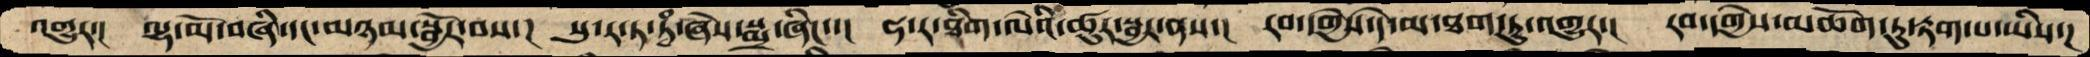འགྱུར་།  ལྷ་མོ་བཞི་དང་མཉམ་སྦྱོར་བས་།  སུ་ར་ཏ་ཏྭཾ་ཞེས་སྨྲ་ཞིང་་།  ཧ་ར་ཐིག་ལེའི་ཚུར་སྦྱར་ནས་།  རབ་དགྱེས་དེ་མ་ཐག་ཏུ་འགྱུར་།  རབ་དགྱེས་མཆོག་ཏུ་རྟག་པ་ཡིས་།
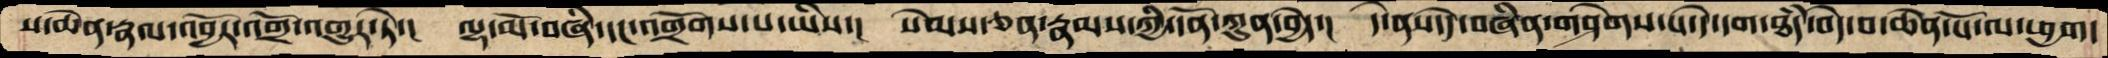ས་ཆེན་རྣལ་འབྱོར་འགྲོ་འགྱུར་ཏེ་།  ལྷ་མོ་བཞི་དང་འགྲོགས་པ་ཡིས་།  སེམས་ཅན་རྣམས་ཀྱི་དོན་ཀུན་བྱེད་།  དེ་ནས་དེ་བཞིན་གཤེགས་པ་དེ་དག་ཐཾད་བདེ་བ་ཆེན་པོ་ལ་ཕྱག་
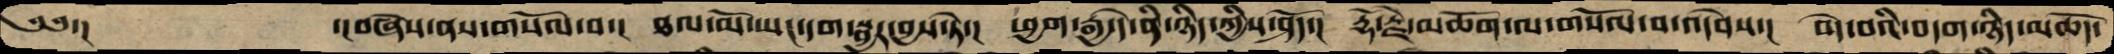༄༅་།       ་།བཞེས་ནས་གསོལ་བ་།  ཐལ་མོ་ཡང་དག་སྦྱར་བྱས་ཏེ་།  ཕྱག་རྒྱ་དེ་ནི་ཉིད་ཀྱིས་ཤོད་།  རྡོ་རྗེ་མཆོག་ལ་གསོལ་བ་འདེབས་།  བདེ་བའི་བདག་ཉིད་མཆོད་
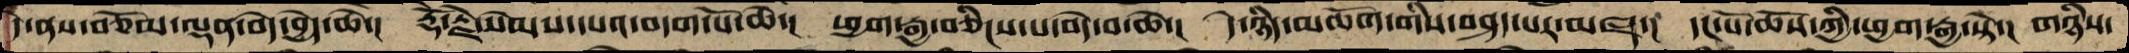དེ་ནས་བཅོམ་ལྡན་བདེ་བྱེད་ཆེ་།  རྡོ་རྗེ་སེམས་དཔའ་བདག་པོ་ཆེ་།  ཕྱག་རྒྱ་བཅིངས་པ་བདེ་བ་ཆེ་།  དེ་ཉིད་མཆོག་གིས་བཤད་པར་མཛད་།  དང་པོ་ཆོས་ཀྱི་ཕྱག་རྒྱ་སྟེ་།  གཉིས་
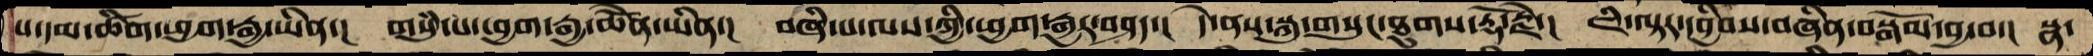པ་དམ་ཚིག་ཕྱག་རྒྱ་ཡིན་།  གསུཾ་པ་ཕྱག་རྒྱ་ཆེནོ་ཡིན་།  བཞི་པ་ལས་ཀྱིཕྱག་རྒྱར་བཤད་།  དེ་ནས་སྐུ་གསུང་ཐུགས་རྡོ་རྗེ་།  ཇི་ལྟར་དབྱིབས་བཞིན་བསྒོམ་བྱ་བ་། སྣ་
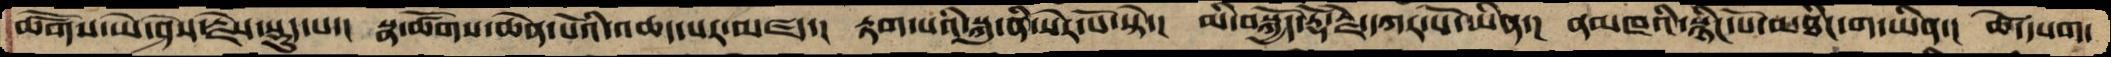མགཽས་ཡེ་ཤེས་རྗེས་སྡུད་པ་།  སྣ་ཚོགས་ཆེན་པོའི་འཆད་པར་མཛད་།  རྟག་པའི་སྐུ་ནི་སེར་པོ་སྟེ་།  མི་བསྐྱོད་རྡོ་རྗེ་དཀར་པོ་ཡིན་།  ནམཁའི་སྙིང་པོ་མཐིང་ག་ཡིན་། ཚེ་དཔག་
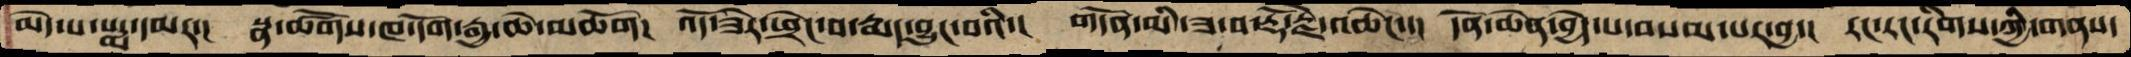མེད་པ་སདྨ་དམར་།  སྣ་ཚོགས་ཁ་དོག་རྒྱ་ཆེ་མཆོག།  འདོ་ཟེར་ཕྲེང་བ་རྨད་བྱུང་བའི་།  གདོན་མི་ཟ་བ་རྡོ་རྗེ་འཆེང་་།  དོན་ཆེན་བྱེདཔ་བསམ་པར་བྱ་།  རང་རང་རིགས་ཀྱི་གནས་
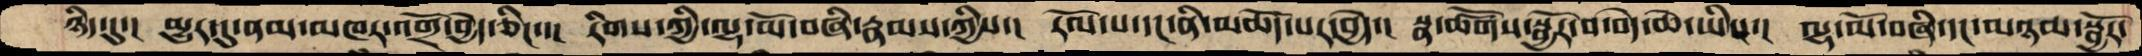ཉིད་དུ་།  མྱུར་དུ་ནམ་མཁར་འགྲོ་བྱེད་ཅིང་་།  རིགས་ཀྱི་ལྷ་མོ་བཞི་རྣམས་ཀྱིས་།  རོལ་པ་དང་ནི་མཆོད་པར་བྱེད་།  སྣ་ཚོགས་སྦྱོར་བ་བདེ་ཆེ་ཡིས་།  ལྷ་མོ་བཞི་དང་མཉམ་སྦྱོར་
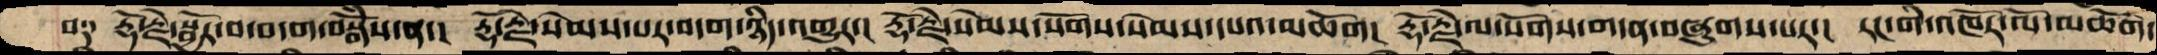པ༑  རྡོ་རྗེ་སྦྱོར་བ་བདག་བསྒོཾམ་ན།  རྡོ་རྗེ་སེམས་པར་བདག་ཉིད་འགྱུར་།  རྡོ་རྗེ་སེམས་སོགས་སེམས་དཔའ་མཆོག།  རྡོ་རྗེ་ལ་སོགས་གདན་བཞུགས་པར་།  རང་གི་འཁོར་ལོ་མཆོག་
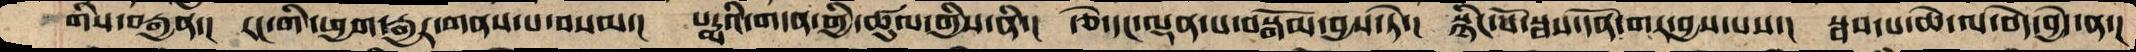གིས་བརྒྱན་།  རང་གི་ཕྱག་རྒྱར་གནས་པ་བསམ་།  པདྨའི་གདན་གྱི་ཚུལ་གྱིས་ནི་།  རྩེ་དང་ལྡན་པ་བསྒོམ་བྱས་ཏེ་།  སྙིང་པོ་སྦས་དོན་གར་བྱས་པས་།  སྦས་པ་ཆེ་ལ་བདེ་བྱེད་ན་།
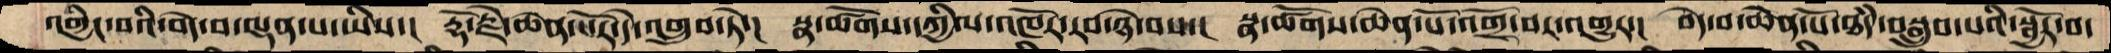འགྱིང་བའི་བདེ་བ་ལྡན་པ་ཡིས་།  རྡོ་རྗེ་ཆེན་པོར་དེ་འགྲུབ་ཏེ་།  སྣ་ཚོགས་དཀྱིལ་འཁོར་རབ་ཉེ་བས་།  སྣ་ཚོགས་ཆེན་པོ་འགྲོ་བར་འགྱུར་།  བདེ་བ་ཆེན་པོ་ཐདཾ་བསྒྲུབ་པའི་སྦྱོར་བ་
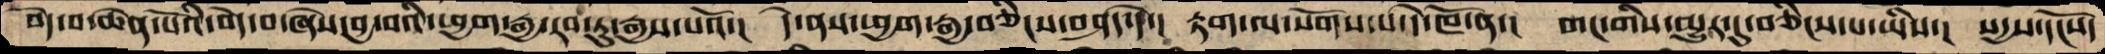བདེ་བ་ཆེན་པོའི་བདེ་བ་ཞེས་བྱ་བའི་ཕྱག་རྒྱ་རབ་ཏུ་རྒྱས་པའོ་།  དེ་ནས་ཕྱག་རྒྱ་བཅིངས་བཤད་དེ་།  རྟག་ལ་སོགས་པ་དེ་ཁོ་ན་།  གང་གིས་མྱུར་དུ་བཅིངས་པ་ཡིས་།  སདྱས་དངོས་
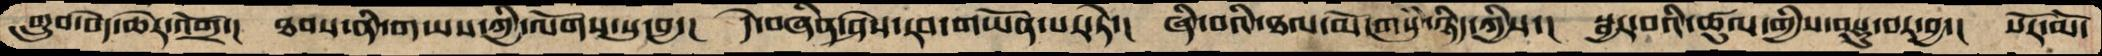གྲུབ་བདེ་ཆེར་འགྲོ་།  ཐབས་ནི་གཡས་ཀྱི་ལོགས་སུ་བྱ་།  དེ་བཞིན་ཤེས་རབ་གཡོན་པར་ཏེ་།  ཞི་བའི་ཐལ་མོ་གསུཾ་ཉིད་ཀྱིས་།  སྦྱར་བའི་ཚུལ་གྱིས་བསྡུ་བར་བྱ་།  སོར་མོ་
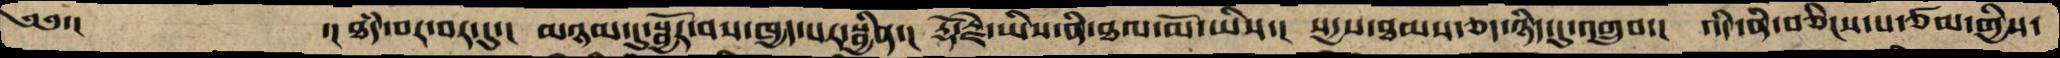༄༅་།        ་།ཐདཾ་བར་བར་དུ་།  མཉམ་དུ་སྦྱོར་བས་ཁྱད་པར་སྦྱིན་།  རྡོ་རྗེ་ཡིས་ནི་ཐལ་མོ་ཡིས་།  སདྱས་ཐམས་ཅད་ཉིད་དུ་འགྲུབ་།  འདི་ནི་བཅིངས་པ་ཙམ་གྱིས་
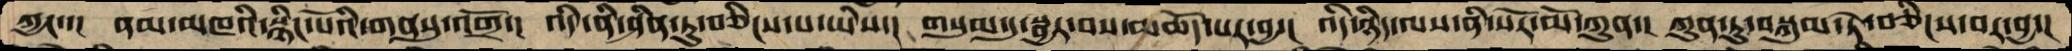ཀྱང་་།  ནམ་མཁའི་སྙིང་པོའི་གནསུ་འགྲོ་།  འདི་ནི་ཤིན་ཏུ་བཅིངས་པ་ཡིས་།  གསུམ་དུ་སྦྱར་བས་མཆོད་པར་བྱ་།  འདི་ཉིད་ལས་ནི་སོར་མོ་ཀུན་།  ཀུན་ཏུ་བསྐུམ་ཏེ་བཅིངས་བར་བྱ་།
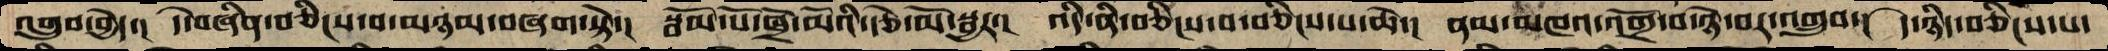འགྲུབ་བྱེད་།  དེ་བཞིན་བཅིངས་པ་མཉམ་བཞག་སྟེ་།  སྦོམ་པོ་ཁྲོ་མོའི་རྩེ་མོ་སྦྱར་།  འདི་ནི་བཅིངས་པ་བཅིངས་པ་ཆེ་།  ནམ་མཁའ་འགྲོ་བ་ཉེ་བར་འགྲུབ་།  དེ་ཉིད་བཅིངས་པ་
